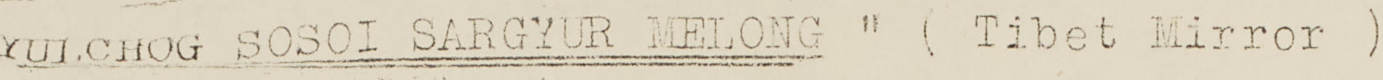YULCHOG SOSOI SARGYUR MELONG " ( Tibet Mirror )
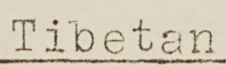Tibetan
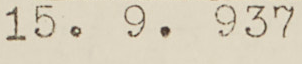15.9. 937
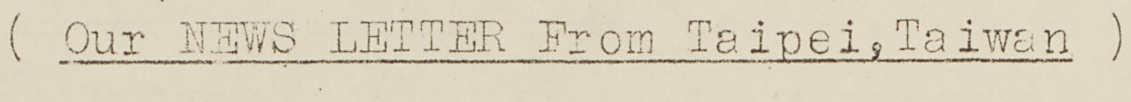( Our NEWS LETTER From Taipei, Taiwan )
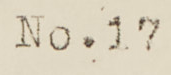No.17
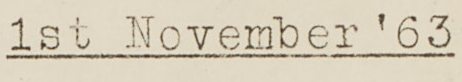1st November '63
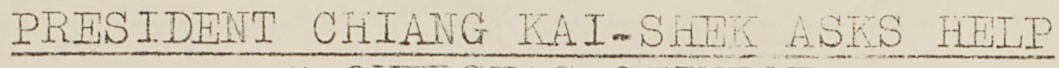PRESIDENT CHIANG KAI-SHET ASKS HELP
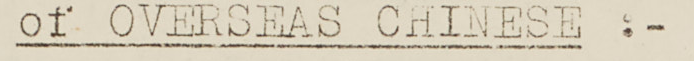of OVERSEAS CHINESE :-
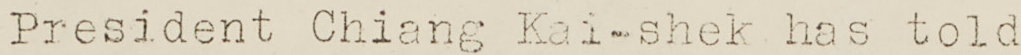President Chiang Kai-shek has told
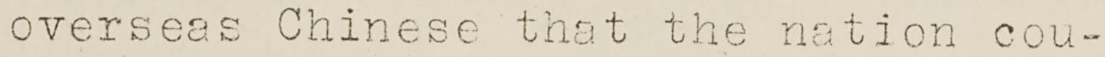overseas Chinese that the nation cou-
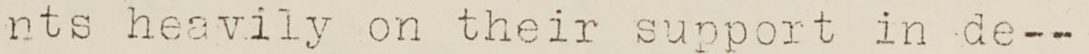nts heavily on their support in de--
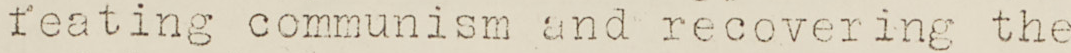feating communism and recovering the
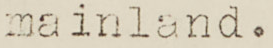mainland.
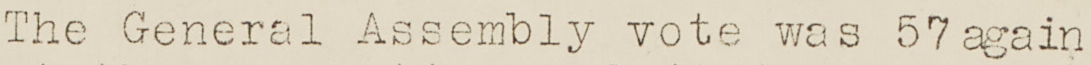The General assembly vote was 57 again
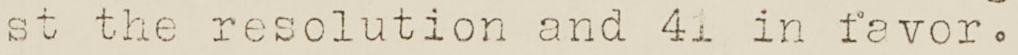st the resolution and 41 in favor
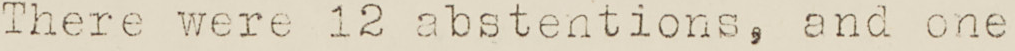There were is abstentions, and one
